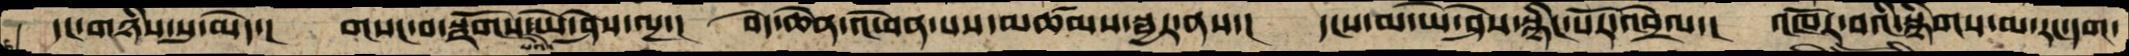དང་གཉིས་སུ་མེད་། གསང་བ་སྫོགས་པའི་ཡེ་ཤེས་ལྔ་། བདེ་ཆེན་འཕེན་པས་མཚམས་སྦྱར་ནས་། དངས་མ་ཡེ་ཤེས་སྙིང་པོར་འབྲེལ་། འཁོར་བའི་སྙིགས་མ་རང་དག་
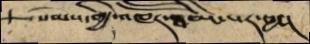སེམས་ཀྱི་འཁཽར་ཐིམ་པར་བྱ་།
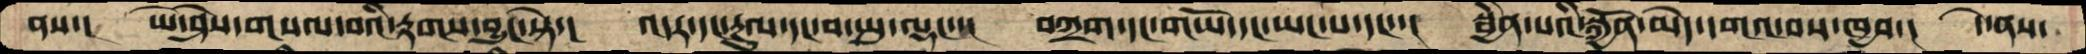ནས་།   ཡེ་ཤེས་གསལ་བའི་རྟགས་བྱུང་སྟེ་།   འདར་དང་རྔུལ་དང་བ་སྤུ་ལྡང་་།  བཀྲག་དང་གཡོ་དང་ཡང་པ་དང་་།  སྦྱིན་པའི་སྐྱོན་མེད་དགའ་བས་ཁྱབ་།  དེ་ནས་
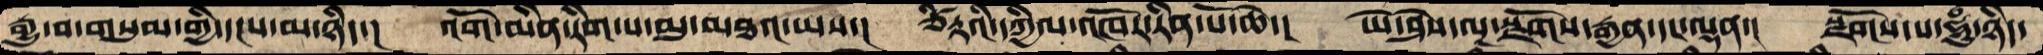རྒྱུ་བ་གསུམ་གྱི་དངས་མ་ཉིད་།   འོག་མིན་རིག་པ་མུ་མཐའ་ཡས་།  ཙིཏྟའི་དཀྱིལ་འཁོར་རིན་པོ་ཆེ་།   ཡེ་ཤེས་ལྔ་སྫོགས་རྒྱན་དང་ལྡན་།  སྫོགས་པ་ཧཱུཾ་ཉིད་
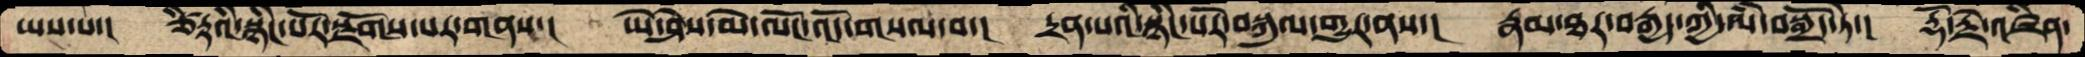ཡས་པ་།    ཙིཏྟའི་སྙིང་པོར་སྫོགས་པར་གནས་།   ཡེ་ཤེས་མེ་ལོང་འོད་གསལ་བ་།  དྲན་པའི་སྙིང་པོར་བསྐུལ་གྱུར་ནས་།  རྣམ་ཐར་བརྒྱད་ཀྱི་ལཾ་བསྒྲོད་ཏེ་།  རྡོ་རྗེ་འཛིན་
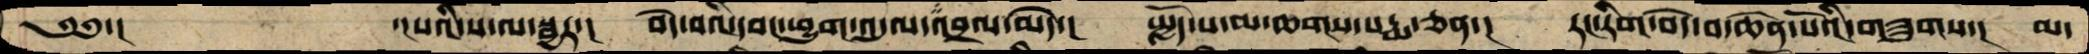༄༅་།           ་།པའི་ས་ལ་སྦྱར་།   བདེ་བའི་དབང་ཕྱུག་འདུལ་འབྲལ་མེད་།  སྤྱོད་པ་མ་ཆགས་པདྨ་ཅན་།  རང་རིག་བདེ་བ་ཆེན་པོའི་གཟུགས་།  མ་
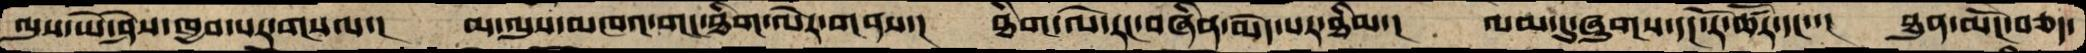ལུས་ཡེ་ཤེས་ཁྱབ་པར་གསལ་།  མ་ལུས་མཁའ་གང་ཐིག་ལེར་གནས་།  ཐིག་ལེ་རང་བཞིན་མེད་པར་ཐིམ་།  ལམ་དུ་ཞུགས་དང་རོ་ཚོར་དང་་།  ཐུན་མོང་བཅད་
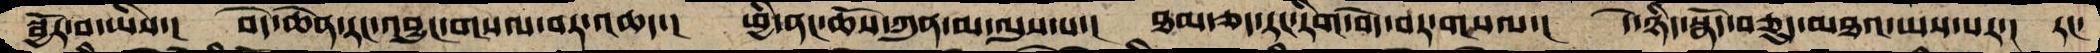སྦྱོར་བ་ཡིས་།   བདེ་ཆེན་རང་འབྱུང་གསལ་བར་འཆད་།  ཕྱི་ནང་ཆོས་ཀུན་མ་ལུས་པ་།  ཐམ་ཅད་རང་རིག་བདེ་བར་གསལ་།  དེ་ཉིད་སྣོད་བཅུད་མཐའ་ཡས་པར་།  རང་
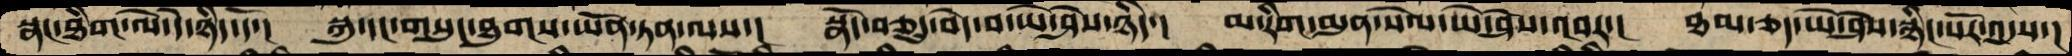སྣང་ཐིག་ལེ་དེ་ཉིད་དོ་།  སྐུ་དང་གསུང་ཐུགས་ཡོན་ཏན་ལས་།  སྣོད་བཅུད་བདེ་བ་ཡེ་ཤེས་ཉིད་།  མ་རིག་མུན་སེལ་ཡེ་ཤེས་འབར་།  ཐམ་ཅད་ཡེ་ཤེས་སྙིང་པོར་འདུས་།
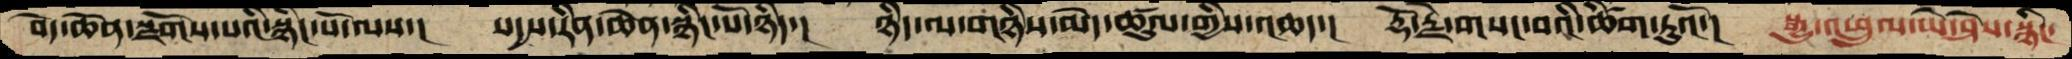བདེ་ཆེན་སྫོགས་པའི་སྙིང་པོ་ལས་།   སདྱས་རིན་ཆེན་སྙིང་པོ་ཉིད་།  ཉིད་ལ་གཉིས་མེད་ཚུལ་གྱིས་འཆད་།  རྡོ་རྗེ་གསང་བའི་ཞིག་ཏུའོ་།  སྒྱུ་འཕྲུལ་ཡེ་ཤེས་སྙིང་
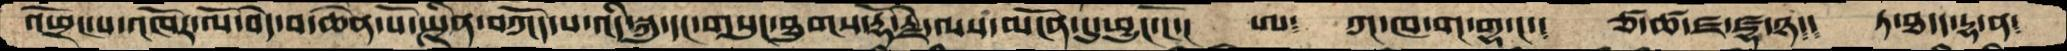འཕྲོང་པ་འཁོར་ལོ་བདེ་བ་ཆེན་པོ་སྤྲིན་བཀོད་པ་འདི་སྐུ་དང་གསུང་ཐུགས་རྡོ་རྗེ་ལས་མངོན་དུ་ཕྱུང་ངོ་།  ཨ༴  ཀ་ཁ་ག་གྷ་ང་༴  ཙ་ཚ་ཛ་ཛྷ་ཉ༴༴  ཏ་ཐ་ད་དྷ་ན༴
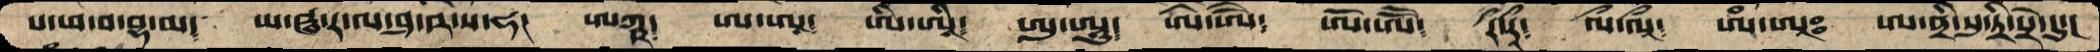པ་ཕ་བ་བྷ་མ༴ ཡ་ཝ་ར་ལ་ཤ་ཥ་ས་ཧ། ཨཀྵ༴  ཨ་ཨཱ༴  ཨི་ཨཱི༴  ཨུ་ཨཱུ༴ ཨེ་ཨཻ༴  ཨོ་ཨཽ༴  ཪྀ་ཪཱྀ༴  ལྀ་ལཱྀ༴  ཨཾ་ཨཱཿ  ཨ་ནྲི་སུ་ཏྲི་སྲེ་དུ་།
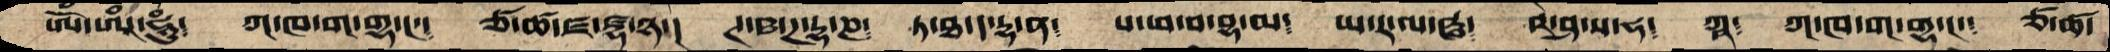ཨོྃ་ཨཱྃ་ཧཱུཾ༴   ཀ་ཁ་ག་གྷ་ང་༴  ཙ་ཚ་ཛ་ཛྷ་ཉ༴།  ཊ་ཋ་ཌ་དྷ་ཎ༴  ཏ་ཋ་ད་དྷ་ན༴  པ་ཕ་བ་བྷ་མ༴  ཡ་ར་ལ་ཝ༴ ཥ་ཤ་ས་ཧ༴  ཀྵ༴  ཀ་ཁ་ག་བྷ་ང་༴ ཙ་ཚ་
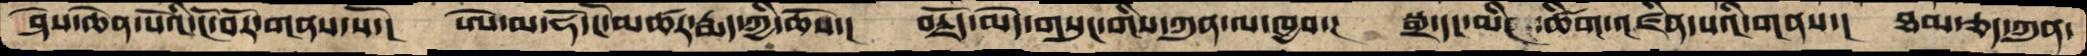ཤེས་ཆེན་པོའི་ངོ་བོར་གནས་སོ་།  ཨེ་མ་ཧོ་ངོ་མཚར་རྨད་ཀྱི་ཆོས་།  བརྗོད་མེད་གསུང་གིས་ཀུན་ལ་ཁྱབ་།  སྒྲ་དང་མིང་ཚིག་འཛིན་པའི་གནས་།  ཐམ་ཅད་ཀུན་
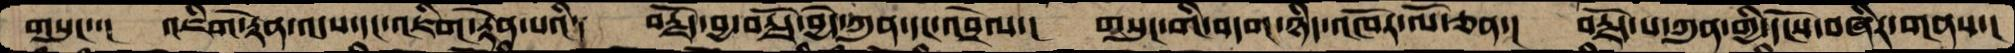གསུང་་།  འཇིག་རྟེན་འདས་དང་འཇིག་རྟེན་པའི་།  བརྗོད་བྱ་བརྗོད་བྱེད་ཀུན་དང་འབྲེལ་།  གསུང་གི་བདག་ཉིད་འཁོར་ལོ་ཅན་།  བརྗོད་པ་ཀུན་གྱི་དངོས་བཞིར་གནས་།
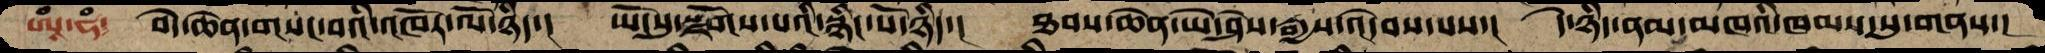ཨཱཾ་ཧཾ༴  བདེ་ཆེན་གསང་བའི་འཁོར་ལོ་ཉིད་།  ཡོངསུ་སྫོགས་པའི་སྙིང་པོ་ཉིད་།  ཐབས་ཆེན་ཡེ་ཤེས་རྒྱས་འདེབས་པས་།  དེ་ཉིད་ནམ་མཁའི་ཁམས་སུ་གནས་།
